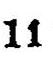11
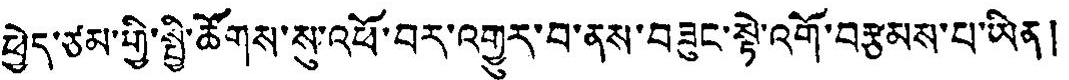ཕྱེད་ཙམ་གྱི་སྤྱི་ཚོགས་སུ་འཕོ་བར་འགྱུར་བ་ནས་བཟུང་སྟེ་འགོ་བརྩམས་པ་ཡིན།
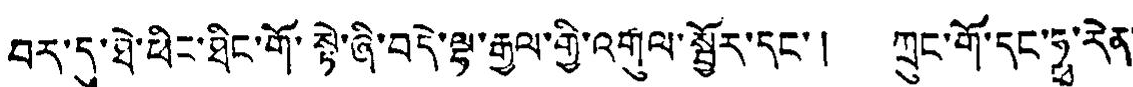བར་དུ་ཐེ་ཕིང་ཐིང་གོ་སྟེ་ཞི་བདེ་ལྔ་རྒྱལ་གྱི་འགུལ་སྦྱོར་དང་། ཀྲུང་གོ་དང་ཧྥ་རེན་
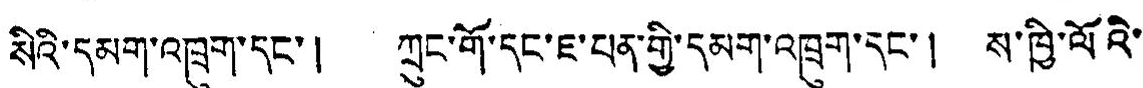སིའི་དམག་འཁྲུག་དང་། ཀྲུང་གོ་དང་ཇ་པན་གྱི་དམག་འཁྲུག་དང་། ས་ཁྱི་ལོའི་
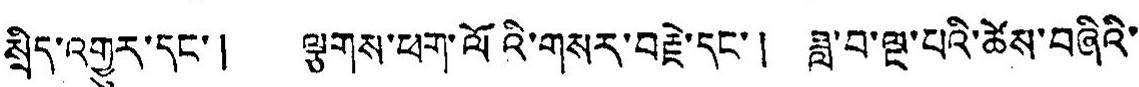སྲིད་འགྱུར་དང་། ལྕགས་ཕག་ལོའི་གསར་བརྗེ་དང་། ཟླ་བ་ལྔ་པའི་ཚེས་བཞིའི་
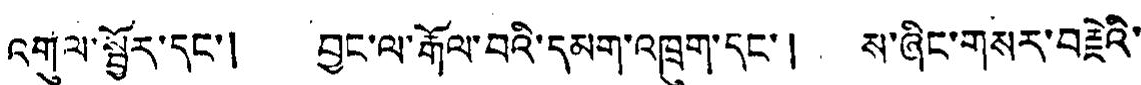འགུལ་སྦྱོར་དང་། བྱང་ལ་རྒོལ་བའི་དམག་འཁྲུག་དང་། ས་ཞིང་གསར་བརྗེའི་
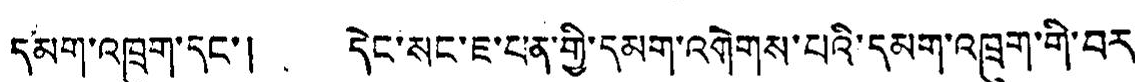དམག་འཁྲུག་དང་། དེང་སང་ཇ་པན་གྱི་དམག་འགེགས་པའི་དམག་འཁྲུག་གི་བར་
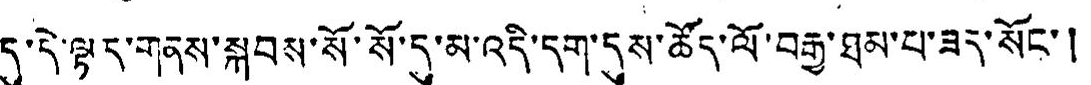དུ་དེ་ལྟར་གནས་སྐབས་སོ་སོ་དུ་མ་འདི་དག་དུས་ཚོད་ལོ་བརྒྱ་ཐམ་པ་ཟར་སོང་།
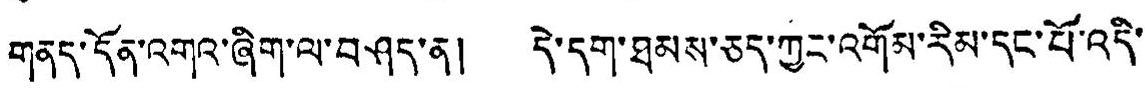གནད་དོན་འགའ་ཞིག་ལ་བཤད་ན། དེ་དག་ཐམས་ཅད་ཀྱང་འགོམ་རིམ་དང་པོ་འདི་
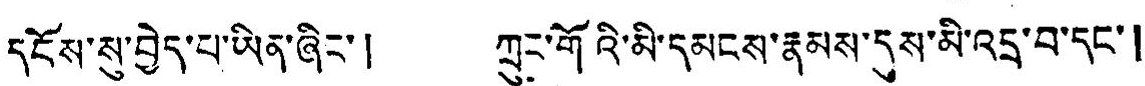དངོས་སུ་བྱེད་པ་ཡིན་ཞིང་། ཀྲུང་གོའི་མི་དམངས་རྣམས་དུས་མི་འདྲ་བ་དང་།
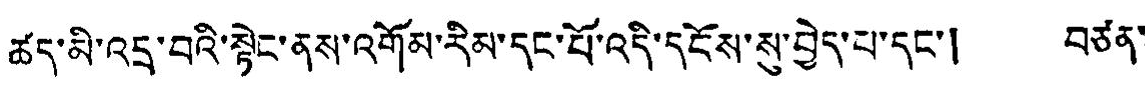ཚད་མི་འདྲ་བའི་སྟེང་ནས་འགོམ་རིམ་དང་པོ་འདི་དངོས་སུ་བྱེད་པ་དང་། བཙན་
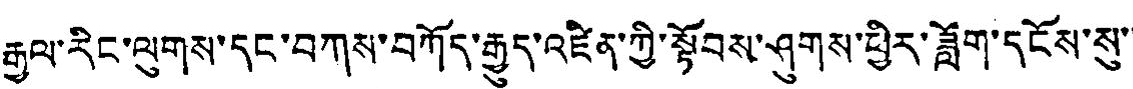རྒྱལ་རིང་ལུགས་དང་བཀས་བཀོད་རྒྱུད་འཛིན་ཀྱི་སྟོབས་ཤུགས་ཕྱིར་ཟློག་དངོས་སུ་
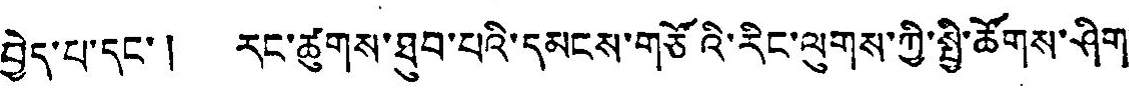བྱེད་པ་དང་། རང་ཚུགས་ཐུབ་པའི་དམངས་གཙོའི་རིང་ལུགས་ཀྱི་སྤྱི་ཚོགས་ཤིག་
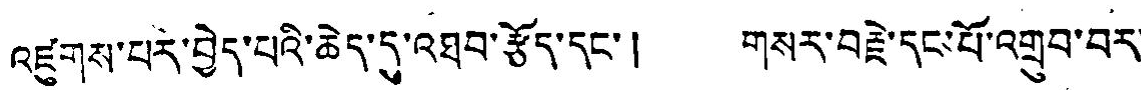འཛུགས་པར་བྱེད་པའི་ཆེད་དུ་འཐབ་རྩོད་དང་། གསར་བརྗེ་དང་པོ་འགྲུབ་བར་
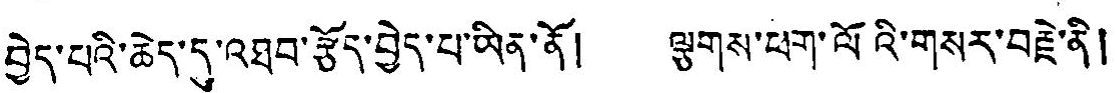བྱེད་པའི་ཆེད་དུ་འཐབ་རྩོད་བྱེད་པ་ཡིན་ནོ། ལྕགས་ཕག་ལོའི་གསར་བརྗེ་ནི།
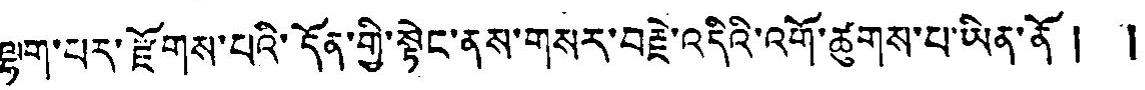ལྷག་པར་རྫོགས་པའི་དོན་གྱི་སྟེང་ནས་གསར་བརྗེ་འདིའི་འགོ་ཚུགས་པ་ཡིན་ནོ། །
